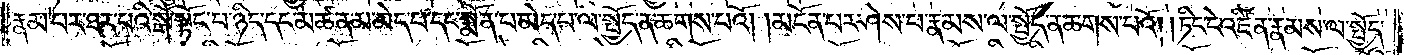རྣམ་པར་ཐར་པའི་སྒོ་སྟོང་པ་ཉིད་དང་མཚན་མ་མེད་པ་དང་སྨོན་པ་མེད་པ་ལ་སྤྱོད་ན་ཆགས་པའོ། །མངོན་པར་ཤེས་པ་རྣམས་ལ་སྤྱོད་ན་ཆགས་པའོ། །ཏིང་ངེ་འཛིན་རྣམས་ལ་སྤྱོད་
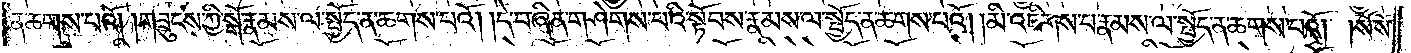ན་ཆགས་པའོ། །གཟུངས་ཀྱི་སྒོ་རྣམས་ལ་སྤྱོད་ན་ཆགས་པའོ། །དེ་བཞིན་གཤེགས་པའི་སྟོབས་རྣམས་ལ་སྤྱོད་ན་ཆགས་པའོ། །མི་འཇིགས་པ་རྣམས་ལ་སྤྱོད་ན་ཆགས་པའོ། །སོ་སོ་
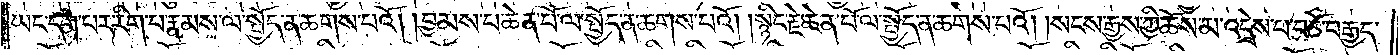ཡང་དག་པར་རིག་པ་རྣམས་ལ་སྤྱོད་ན་ཆགས་པའོ། །བྱམས་པ་ཆེན་པོ་ལ་སྤྱོད་ན་ཆགས་པའོ། །སྙིང་རྗེ་ཆེན་པོ་ལ་སྤྱོད་ན་ཆགས་པའོ། །སངས་རྒྱས་ཀྱི་ཆོས་མ་འདྲེས་པ་བཅོ་བརྒྱད་
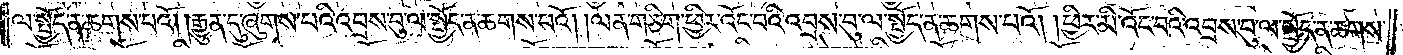ལ་སྤྱོད་ན་ཆགས་པའོ། །རྒྱུན་དུ་ཞུགས་པའི་འབྲས་བུ་ལ་སྤྱོད་ན་ཆགས་པའོ། །ལན་གཅིག་ཕྱིར་འོང་བའི་འབྲས་བུ་ལ་སྤྱོད་ན་ཆགས་པའོ། །ཕྱིར་མི་འོང་བའི་འབྲས་བུ་ལ་སྤྱོད་ན་ཆགས་
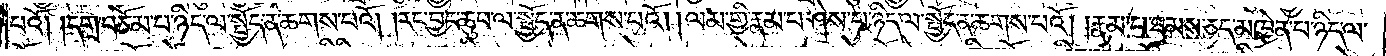པའོ། །དགྲ་བཅོམ་པ་ཉིད་ལ་སྤྱོད་ན་ཆགས་པའོ། །རང་བྱང་ཆུབ་ལ་སྤྱོད་ན་ཆགས་པའོ། །ལམ་གྱི་རྣམ་པ་ཤེས་པ་ཉིད་ལ་སྤྱོད་ན་ཆགས་པའོ། །རྣམ་པ་ཐམས་ཅད་མཁྱེན་པ་ཉིད་ལ་
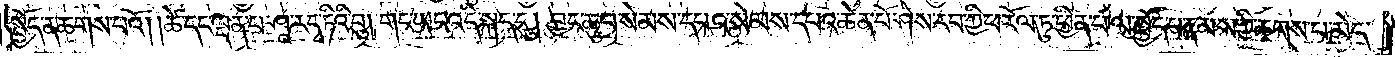སྤྱོད་ན་ཆགས་པའོ། །ཚེ་དང་ལྡན་པ་ཤཱ་རདྭ་ཏིའི་བུ། གང་ཡང་འདི་སྐད་དུ། བྱང་ཆུབ་སེམས་དཔའ་སེམས་དཔའ་ཆེན་པོ་ཤེས་རབ་ཀྱི་ཕ་རོལ་ཏུ་ཕྱིན་པ་ལ་སྤྱོད་པ་རྣམས་ཀྱི་ཆགས་པ་མེད་
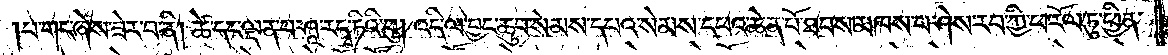པ་གང་ཞེས་ཟེར་བ་ནི། ཚེ་དང་ལྡན་པ་ཤཱ་རདྭ་ཏིའི་བུ། འདི་ལ་བྱང་ཆུབ་སེམས་དཔའ་སེམས་དཔའ་ཆེན་པོ་ཐབས་མཁས་པ་ཤེས་རབ་ཀྱི་ཕ་རོལ་ཏུ་ཕྱིན་
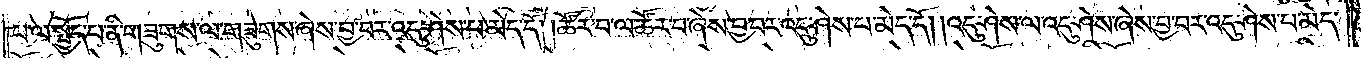པ་ལ་སྤྱོད་པ་ནི་གཟུགས་ལ་གཟུགས་ཞེས་བྱ་བར་འདུ་ཤེས་པ་མེད་དོ། །ཚོར་བ་ལ་ཚོར་བ་ཞེས་བྱ་བར་འདུ་ཤེས་པ་མེད་དོ། །འདུ་ཤེས་ལ་འདུ་ཤེས་ཞེས་བྱ་བར་འདུ་ཤེས་པ་མེད་
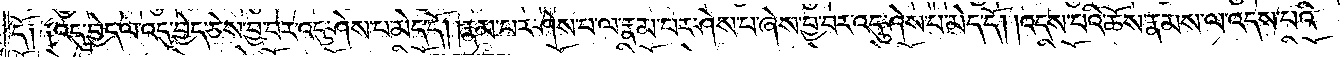དོ༑ ༑འདུ་བྱེད་ལ་འདུ་བྱེད་ཅེས་བྱ་བར་འདུ་ཤེས་པ་མེད་དོ། །རྣམ་པར་ཤེས་པ་ལ་རྣམ་པར་ཤེས་པ་ཞེས་བྱ་བར་འདུ་ཤེས་པ་མེད་དོ། །འདས་པའི་ཆོས་རྣམས་ལ་འདས་པའི་
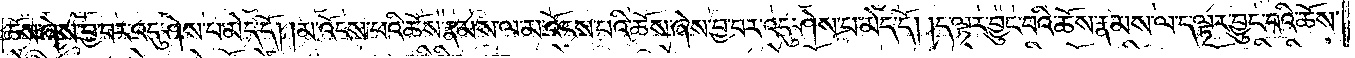ཆོས་ཞེས་བྱ་བར་འདུ་ཤེས་པ་མེད་དོ། །མ་འོངས་པའི་ཆོས་རྣམས་ལ་མ་འོངས་པའི་ཆོས་ཞེས་བྱ་བར་འདུ་ཤེས་པ་མེད་དོ། །ད་ལྟར་བྱུང་བའི་ཆོས་རྣམས་ལ་ད་ལྟར་བྱུང་བའི་ཆོས་
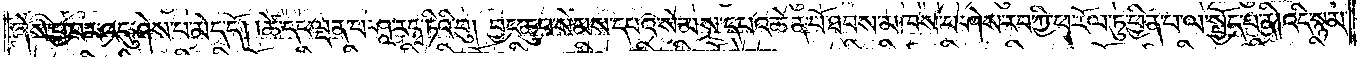ཞེས་བྱ་བར་འདུ་ཤེས་པ་མེད་དོ། །ཚེ་དང་ལྡན་པ་ཤཱ་རདྭ་ཏིའི་བུ། བྱང་ཆུབ་སེམས་དཔའ་སེམས་དཔའ་ཆེན་པོ་ཐབས་མཁས་པ་ཤེས་རབ་ཀྱི་ཕ་རོལ་ཏུ་ཕྱིན་པ་ལ་སྤྱོད་པ་ནི། འདི་སྙམ་
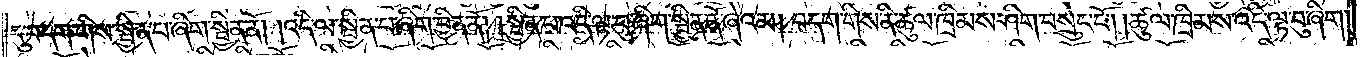དུ་བདག་གིས་སྦྱིན་པ་ཞིག་སྦྱིན་ནོ། །འདི་ལ་སྦྱིན་པ་ཞིག་བྱིན་ནོ། །སྦྱིན་པ་འདི་ལྟ་བུ་ཞིག་སྦྱིན་ནོ་ཞེའམ། བདག་གིས་ནི་ཚུལ་ཁྲིམས་ཤིག་བསྲུང་ངོ༌། །ཚུལ་ཁྲིམས་འདི་ལྟ་བུ་ཞིག་
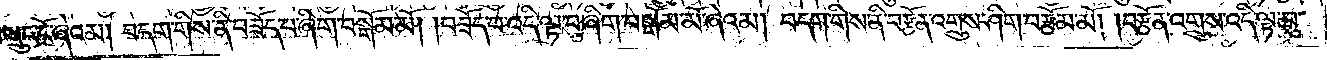བསྲུང་ངོ་ཞེའམ། བདག་གིས་ནི་བཟོད་པ་ཞིག་བསྒོམ་མོ། །བཟོད་པ་འདི་ལྟ་བུ་ཞིག་བསྒོམ་མོ་ཞེའམ། བདག་གིས་ནི་བརྩོན་འགྲུས་ཤིག་བརྩོམ་མོ། །བརྩོན་འགྲུས་འདི་ལྟ་བུ་
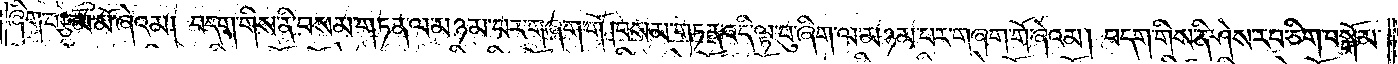ཞིག་བརྩམ་མོ་ཞེའམ། བདག་གིས་ནི་བསམ་གཏན་ལ་མཉམ་པར་བཞག་གོ། བསམ་གཏན་འདི་ལྟ་བུ་ཞིག་ལ་མཉམ་པར་གཞག་གོ་ཞེའམ། བདག་གིས་ནི་ཤེས་རབ་གཅིག་བསྒོམ་
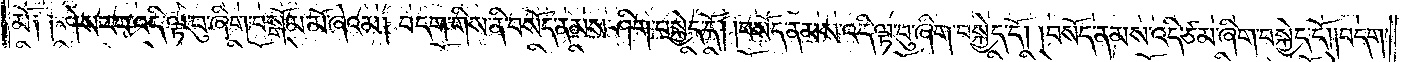མོ༑ ༑ཤེས་རབ་འདི་ལྟ་བུ་ཞིག་བསྒོམ་མོ་ཞེའམ། བདག་གིས་ནི་བསོད་ནམས་ཤིག་བསྐྱེད་དོ། །བསོད་ནམས་འདི་ལྟ་བུ་ཞིག་བསྐྱེད་དོ། །བསོད་ནམས་འདི་ཙམ་ཞིག་བསྐྱེད་དོ། །བདག་
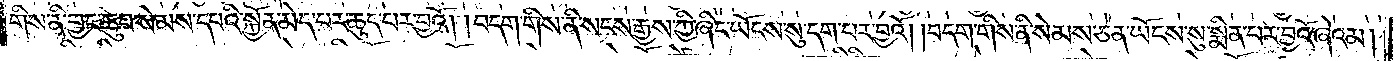གིས་ནི་བྱང་ཆུབ་སེམས་དཔའི་སྐྱོན་མེད་པར་ཆུད་པར་བྱའོ། །བདག་གིས་ནི་སངས་རྒྱས་ཀྱི་ཞིང་ཡོངས་སུ་དག་པར་བྱའོ། །བདག་གིས་ནི་སེམས་ཅན་ཡོངས་སུ་སྨིན་པར་བྱའོ་ཞེའམ།
